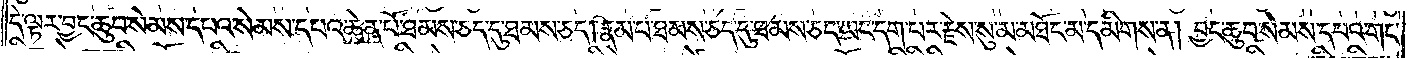དེ་ལྟར་བྱང་ཆུབ་སེམས་དཔའ་སེམས་དཔའ་ཆེན་པོ་ཐམས་ཅད་དུ་ཐམས་ཅད། རྣམ་པ་ཐམས་ཅད་དུ་ཐམས་ཅད་ཡང་དག་པར་རྗེས་སུ་མ་མཐོང་མ་དམིགས་ན། བྱང་ཆུབ་སེམས་དཔའ་གང་
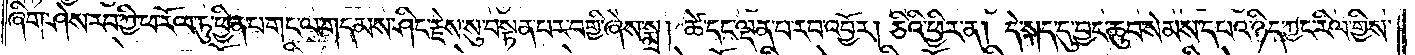ཞིག་ཤེས་རབ་ཀྱི་ཕ་རོལ་ཏུ་ཕྱིན་པ་གང་ལ་གདམས་ཤིང་རྗེས་སུ་བསྟན་པར་བགྱི་ཞེས་སྨྲ། ཚེ་དང་ལྡན་པ་རབ་འབྱོར། ཅིའི་ཕྱིར་ན། དེ་སྐད་དུ་བྱང་ཆུབ་སེམས་དཔའ་ཉིད་ཀྱང་རིལ་གྱིས་
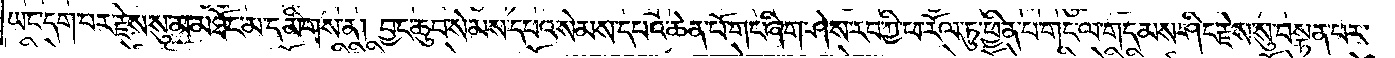ཡང་དག་པར་རྗེས་སུ་མ་མཐོང་མ་དམིགས་ན། བྱང་ཆུབ་སེམས་དཔའ་སེམས་དཔའ་ཆེན་པོ་གང་ཞིག་ཤེས་རབ་ཀྱི་ཕ་རོལ་ཏུ་ཕྱིན་པ་གང་ལ་གདམས་ཤིང་རྗེས་སུ་བསྟན་པར་
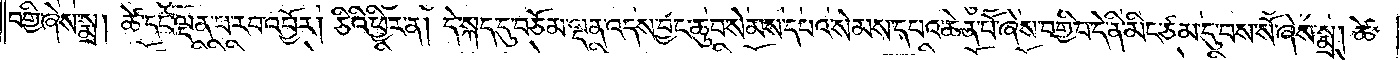བགྱི་ཞེས་སྨྲ། ཚེ་དང་ལྡན་པ་རབ་འབྱོར། ཅིའི་ཕྱིར་ན། དེ་སྐད་དུ་བཅོམ་ལྡན་འདས་བྱང་ཆུབ་སེམས་དང་སེམས་དཔའ་ཆེན་པོ་ཞེས་བགྱི་བ་འདི་ནི་མིང་ཙམ་དུ་བས་སོ་ཞེས་སྨྲ། ཚེ་
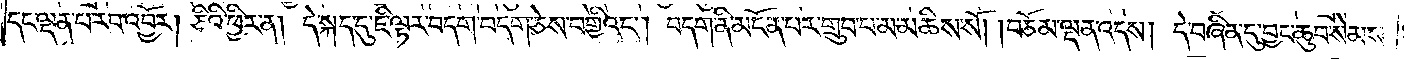དང་ལྡན་པ་རབ་འབྱོར། ཅིའི་ཕྱིར་ན། དེ་སྐད་དུ་ཇི་ལྟར་བདག་བདག་ཅེས་བགྱིའང༌། བདག་ནི་མངོན་པར་གྲུབ་པ་མ་མཆིས་སོ། །བཅོམ་ལྡན་འདས། དེ་བཞིན་དུ་བྱང་ཆུབ་སེམས་
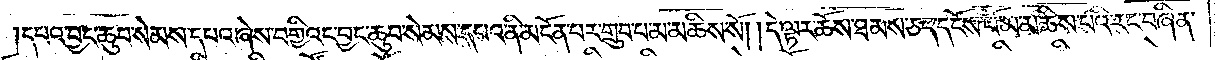དཔའ་བྱང་ཆུབ་སེམས་དཔའ་ཞེས་བགྱིའང་བྱང་ཆུབ་སེམས་དཔའ་ནི་མངོན་པར་གྲུབ་པ་མ་མཆིས་སོ། །དེ་ལྟར་ཆོས་ཐམས་ཅད་དངོས་པོ་མ་མཆིས་པའི་རང་བཞིན་
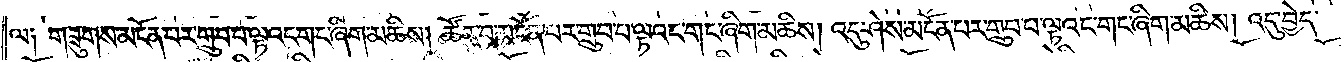ལ། གཟུགས་མངོན་པར་གྲུབ་པ་ལྟའང་གང་ཞིག་མཆིས། ཚོར་བ་མངོན་པར་གྲུབ་པ་ལྟའང་གང་ཞིག་མཆིས། འདུ་ཤེས་མངོན་པར་གྲུབ་པ་ལྟའང་གང་ཞིག་མཆིས། འདུ་བྱེད་
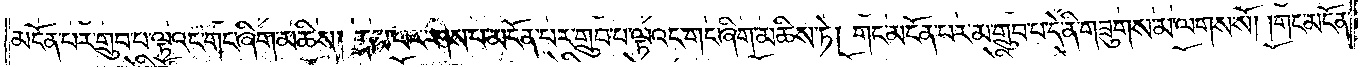མངོན་པར་གྲུབ་པ་ལྟའང་གང་ཞིག་མཆིས། རྣམ་པར་ཤེས་པ་མངོན་པར་གྲུབ་པ་ལྟའང་གང་ཞིག་མཆིས་ཏེ། གང་མངོན་པར་མ་གྲུབ་པ་དེ་ནི་གཟུགས་མ་ལགས་སོ། །གང་མངོན་
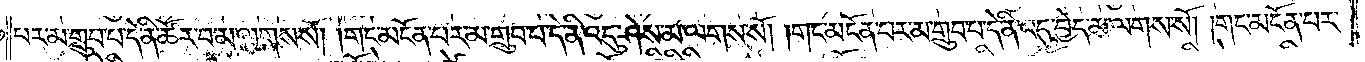པར་མ་གྲུབ་པ་དེ་ནི་ཚོར་བ་མ་ལགས་སོ། །གང་མངོན་པར་མ་གྲུབ་པ་དེ་ནི་འདུ་ཤེས་མ་ལགས་སོ། །གང་མངོན་པར་མ་གྲུབ་པ་དེ་ནི་འདུ་བྱེད་མ་ལགས་སོ། །གང་མངོན་པར་
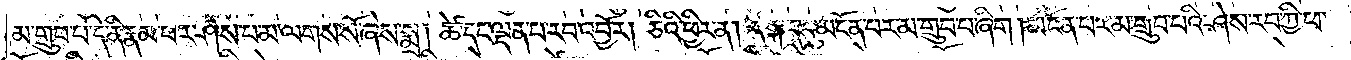མ་གྲུབ་པ་དེ་ནི་རྣམ་པར་ཤེས་པ་མ་ལགས་སོ་ཞེས་སྨྲ། ཚེ་དང་ལྡན་པ་རབ་འབྱོར། ཅིའི་ཕྱིར་ན། དེ་སྐད་དུ་མངོན་པར་མ་གྲུབ་པ་ཞིག །མངོན་པར་མ་གྲུབ་པའི་ཤེས་རབ་ཀྱི་ཕ་
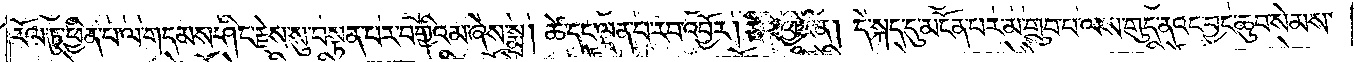རོལ་ཏུ་ཕྱིན་པ་ལ་གདམས་ཤིང་རྗེས་སུ་བསྟན་པར་བགྱི་འམ་ཞེས་སྨྲ། ཚེ་དང་ལྡན་པ་རབ་འབྱོར། ཅིའི་ཕྱིར་ན། དེ་སྐད་དུ་མངོན་པར་མ་གྲུབ་པ་ལས་གུད་ནའང་བྱང་ཆུབ་སེམས་
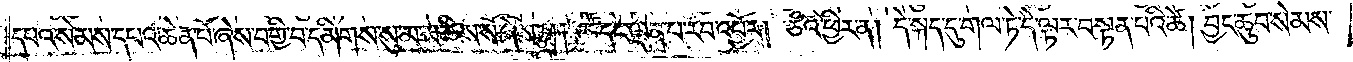དཔའ་སེམས་དཔའ་ཆེན་པོ་ཞེས་བགྱི་བ་དམིགས་སུ་མ་མཆིས་སོ་ཞེས་སྨྲ། ཚེ་དང་ལྡན་པ་རབ་འབྱོར། ཅིའི་ཕྱིར་ན། དེ་སྐད་དུ་གལ་ཏེ་དེ་ལྟར་བསྟན་པའི་ཚེ། བྱང་ཆུབ་སེམས་
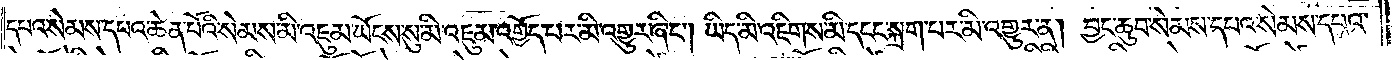དཔའ་སེམས་དཔའ་ཆེན་པོའི་སེམས་མི་འཇུམ་ཡོངས་སུ་མི་འཇུམ་འགྱོད་པར་མི་འགྱུར་ཞིང༌། ཡིད་མི་འཇིགས་མི་དངང་སྐྲག་པར་མི་འགྱུར་ན། བྱང་ཆུབ་སེམས་དཔའ་སེམས་དཔའ་
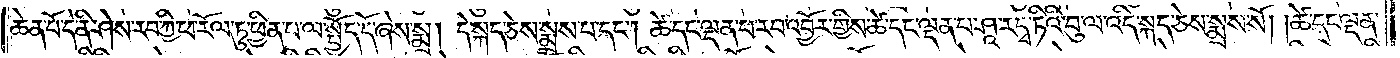ཆེན་པོ་དེ་ནི་ཤེས་རབ་ཀྱི་ཕ་རོལ་ཏུ་ཕྱིན་པ་ལ་སྤྱོད་དོ་ཞེས་སྨྲ། དེ་སྐད་ཅེས་སྨྲས་པ་དང༌། ཚེ་དང་ལྡན་པ་རབ་འབྱོར་གྱིས་ཚེ་དང་ལྡན་པ་ཤཱ་རདྭ་ཏིའི་བུ་ལ་འདི་སྐད་ཅེས་སྨྲས་སོ། །ཚེ་དང་ལྡན་
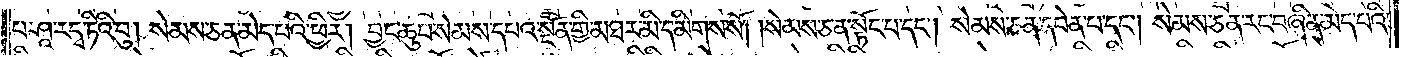པ་ཤཱ་རདྭ་ཏིའི་བུ། སེམས་ཅན་མེད་པའི་ཕྱིར། བྱང་ཆུབ་སེམས་དཔའ་སྔོན་གྱི་མཐར་མི་དམིགས་སོ། །སེམས་ཅན་སྟོང་པ་དང༌། སེམས་ཅན་དབེན་པ་དང༌། སེམས་ཅན་རང་བཞིན་མེད་པའི་
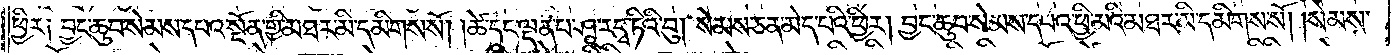ཕྱིར། བྱང་ཆུབ་སེམས་དཔའ་སྔོན་གྱི་མཐར་མི་དམིགས་སོ། །ཚེ་དང་ལྡན་པ་ཤཱ་རདྭ་ཏིའི་བུ། སེམས་ཅན་མེད་པའི་ཕྱིར། བྱང་ཆུབ་སེམས་དཔའ་ཕྱི་མའི་མཐར་མི་དམིགས་སོ། །སེམས་
